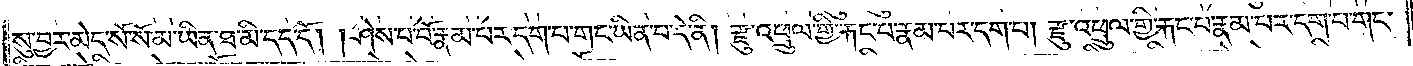སུ་བྱར་མེད་སོ་སོ་མ་ཡིན་ཐ་མི་དད་དོ། །ཤེས་པ་པོ་རྣམ་པར་དག་པ་གང་ཡིན་པ་དེ་ནི། རྫུ་འཕྲུལ་གྱི་རྐང་པ་རྣམ་པར་དག་པ། རྫུ་འཕྲུལ་གྱི་རྐང་པ་རྣམ་པར་དག་པ་གང་
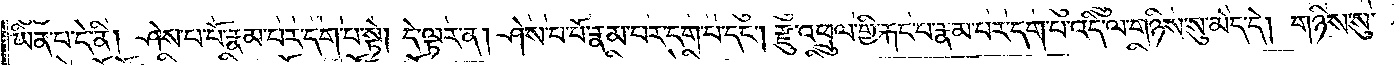ཡིན་པ་དེ་ནི། ཤེས་པ་པོ་རྣམ་པར་དག་པ་སྟེ། དེ་ལྟར་ན། ཤེས་པ་པོ་རྣམ་པར་དག་པ་དང༌། རྫུ་འཕྲུལ་གྱི་རྐང་པ་རྣམ་པར་དག་པ་འདི་ལ་གཉིས་སུ་མེད་དེ། གཉིས་སུ་
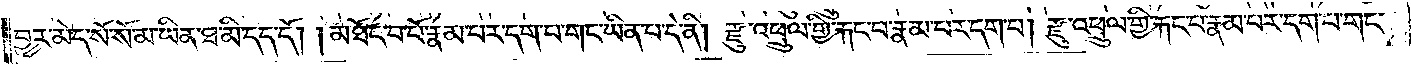བྱར་མེད་སོ་སོ་མ་ཡིན་ཐ་མི་དད་དོ། །མཐོང་བ་པོ་རྣམ་པར་དག་པ་གང་ཡིན་པ་དེ་ནི། རྫུ་འཕྲུལ་གྱི་རྐང་པ་རྣམ་པར་དག་པ། རྫུ་འཕྲུལ་གྱི་རྐང་པ་རྣམ་པར་དག་པ་གང་
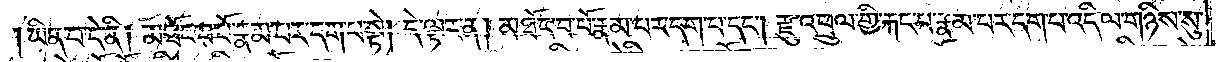ཡིན་པ་དེ་ནི། མཐོང་བ་པོ་རྣམ་པར་དག་པ་སྟེ། དེ་ལྟར་ན། མཐོང་བ་པོ་རྣམ་པར་དག་དང༌། རྫུ་འཕྲུལ་གྱི་རྐང་པ་རྣམ་པར་དག་འདི་ལ་གཉིས་སུ་
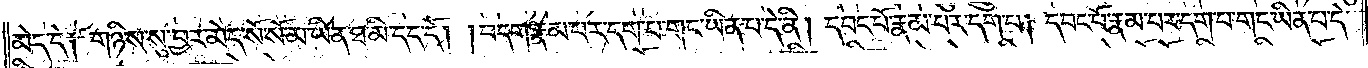མེད་དེ། གཉིས་སུ་བྱར་མེད་སོ་སོ་མ་ཡིན་ཐ་མི་དད་དོ། །བདག་རྣམ་པར་དག་པ་གང་ཡིན་པ་དེ་ནི། དབང་པོ་རྣམ་པར་དག་པ། དབང་པོ་རྣམ་པར་དག་པ་གང་ཡིན་པ་དེ་
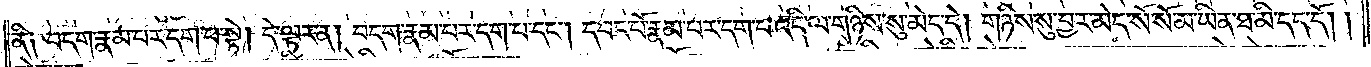ནི། བདག་རྣམ་པར་དག་པ་སྟེ། དེ་ལྟར་ན། བདག་རྣམ་པར་དག་པ་དང༌། དབང་པོ་རྣམ་པར་དག་འདི་ལ་གཉིས་སུ་མེད་དེ། གཉིས་སུ་བྱར་མེད་སོ་སོ་མ་ཡིན་ཐ་མི་དད་དོ། །
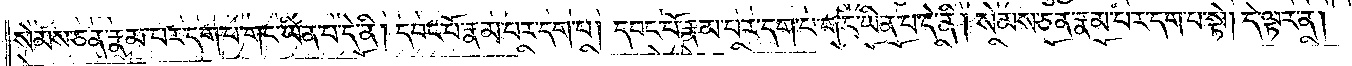སེམས་ཅན་རྣམ་པར་དག་པ་གང་ཡིན་པ་དེ་ནི། དབང་པོ་རྣམ་པར་དག་པ། དབང་པོ་རྣམ་པར་དག་པ་གང་ཡིན་པ་དེ་ནི། སེམས་ཅན་རྣམ་པར་དག་པ་སྟེ། དེ་ལྟར་ན།
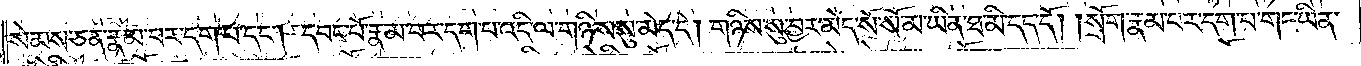སེམས་ཅན་རྣམ་པར་དག་པ་དང༌། དབང་པོ་རྣམ་པར་དག་པ་འདི་ལ་གཉིས་སུ་མེད་དེ། གཉིས་སུ་བྱར་མེད་སོ་སོ་མ་ཡིན་ཐ་མི་དད་དོ། །སྲོག་རྣམ་པར་དག་པ་གང་ཡིན་
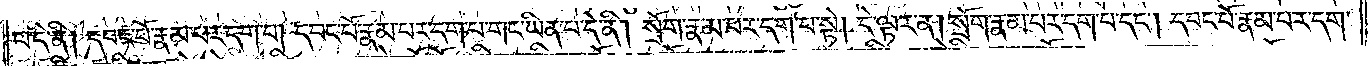པ་དེ་ནི། དབང་པོ་རྣམ་པར་དག་པ། དབང་པོ་རྣམ་པར་དག་པ་གང་ཡིན་པ་དེ་ནི། སྲོག་རྣམ་པར་དག་པ་སྟེ། དེ་ལྟར་ན། སྲོག་རྣམ་པར་དག་པ་དང༌། དབང་པོ་རྣམ་པར་དག་
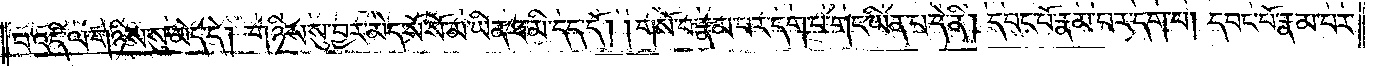པ་འདི་ལ་གཉིས་སུ་མེད་དེ། གཉིས་སུ་བྱར་མེད་སོ་སོ་མ་ཡིན་ཐ་མི་དད་དོ། །གསོ་བ་རྣམ་པར་དག་པ་གང་ཡིན་པ་དེ་ནི། དབང་པོ་རྣམ་པར་དག་པ། དབང་པོ་རྣམ་པར་
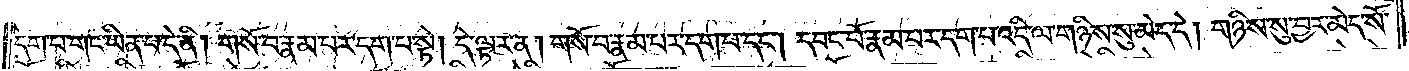དག་པ་གང་ཡིན་པ་དེ་ནི། གསོ་བ་རྣམ་པར་དག་པ་སྟེ། དེ་ལྟར་ན། གསོ་བ་རྣམས་པར་དག་པ་དང༌། དབང་པོ་རྣམ་པར་དག་པ་འདི་ལ་གཉིས་སུ་མེད་དེ། གཉིས་སུ་བྱར་མེད་སོ་
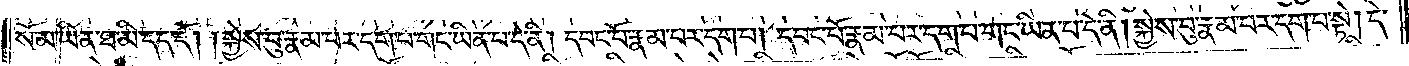སོ་མ་ཡིན་ཐ་མི་དད་དོ། །སྐྱེས་བུ་རྣམ་པར་དག་པ་གང་ཡིན་པ་དེ་ནི། དབང་པོ་རྣམ་པར་དག་པ། དབང་པོ་རྣམ་པར་དག་གང་ཡིན་པ་དེ་ནི། སྐྱེས་བུ་རྣམ་པར་དག་པ་སྟེ། དེ་
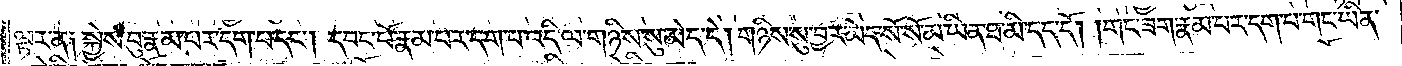ལྟར་ན། སྐྱེས་བུ་རྣམ་པར་དག་པ་དང༌། དབང་པོ་རྣམ་པར་དག་པ་འདི་ལ་གཉིས་སུ་མེད་དེ། གཉིས་སུ་བྱར་མེད་སོ་སོ་མ་ཡིན་ཐ་མི་དད་དོ། །གང་ཟག་རྣམ་པར་དག་པ་གང་ཡིན་
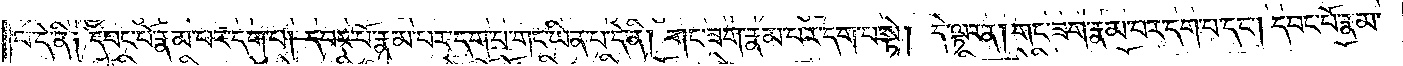པ་དེ་ནི། དབང་པོ་རྣམ་པར་དག་པ། དབང་པོ་རྣམ་པར་དག་པ་གང་ཡིན་པ་དེ་ནི། གང་ཟག་རྣམ་པར་དག་པ་སྟེ། དེ་ལྟར་ན། གང་ཟག་རྣམ་པར་དག་པ་དང༌། དབང་པོ་རྣམ་
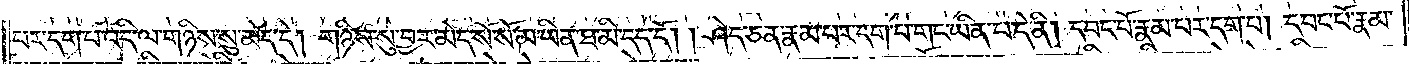པར་དག་པ་འདི་ལ་གཉིས་སུ་མེད་དེ། གཉིས་སུ་བྱར་མེད་སོ་སོ་མ་ཡིན་ཐ་མི་དད་དོ། །ཤེད་ཅན་རྣམ་པར་དག་པ་གང་ཡིན་པ་དེ་ནི། དབང་པོ་རྣམ་པར་དག་པ། དབང་པོ་རྣམ་
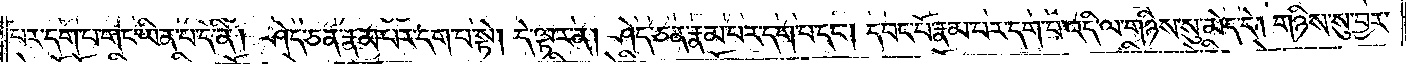པར་དག་པ་གང་ཡིན་པ་དེ་ནི། ཤེད་ཅན་རྣམ་པར་དག་པ་སྟེ། དེ་ལྟར་ན། ཤེད་ཅན་རྣམ་པར་དག་པ་དང༌། དབང་པོ་རྣམ་པར་དག་པ་འདི་ལ་གཉིས་སུ་མེད་དེ། གཉིས་སུ་བྱར་
